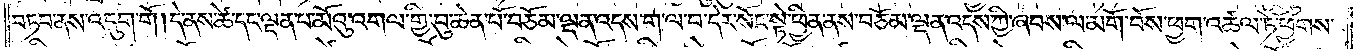བཏབ་ནས་འདུག་གོ །དེ་ནས་ཚེ་དང་ལྡན་པ་མོའུ་འགལ་གྱི་བུ་ཆེན་པོ་བཅོམ་ལྡན་འདས་ག་ལ་བ་དེར་སོང་སྟེ་ཕྱིན་ནས་བཅོམ་ལྡན་འདས་ཀྱི་ཞབས་ལ་མགོ་བོས་ཕྱག་འཚལ་ཏེ་ཕྱོགས་
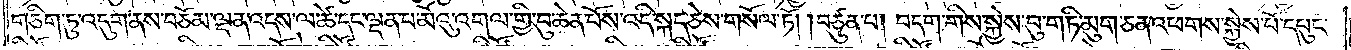གཅིག་ཏུ་འདུག་ནས་བཅོམ་ལྡན་འདས་ལ་ཚེ་དང་ལྡན་པ་མོའུ་འགལ་གྱི་བུ་ཆེན་པོས་འདི་སྐད་ཅེས་གསོལ་ཏོ། །བཙུན་པ། བདག་གིས་སྐྱེས་བུ་གཏི་མུག་ཅན་འཕགས་སྐྱེས་པོ་དཔུང་
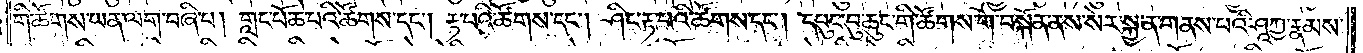གི་ཚོགས་ཡན་ལག་བཞི་པ། གླང་པོ་ཆེ་པའི་ཚོགས་དང༌། རྟ་པའི་ཚོགས་དང༌། ཤིང་རྟ་པའི་ཚོགས་དང༌། དཔུང་བུ་ཆུང་གི་ཚོགས་གོ་བསྐོན་ནས་སེར་སྐྱ་ན་གནས་པའི་ཤཱཀྱ་རྣམས་
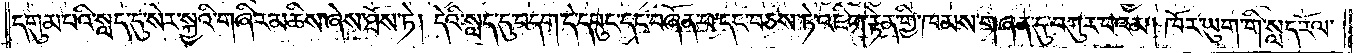དགུམ་པའི་སླད་དུ་སེར་སྐྱའི་གཞིར་མཆིས་ཞེས་ཐོས་ཏེ། དེའི་སླད་དུ་བདག་དེ་དཔུང་དང་བཞོན་པ་དང་བཅས་ཏེ་འཇིག་རྟེན་གྱི་ཁམས་གཞན་དུ་བཀུར་བའམ། ཁོར་ཡུག་གི་སླད་རོལ་
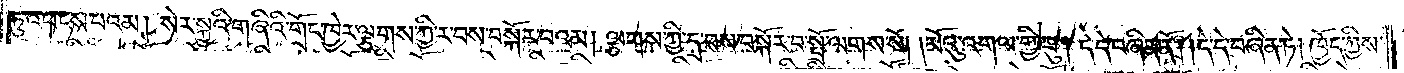ཏུ་འཕངས་པའམ། སེར་སྐྱའི་གཞིའི་གྲོང་ཁྱེར་ལྕགས་ཀྱི་ར་བས་བསྐོར་བའམ། ལྕགས་ཀྱི་དྲ་བས་བསྐོར་བ་སྤྲོ་ལགས་སོ། །མོའུ་འགལ་གྱི་བུ། དེ་དེ་བཞིན་ནོ། །དེ་དེ་བཞིན་ཏེ། ཁྱོད་ཀྱིས་
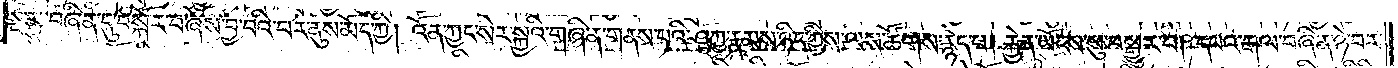སྔ་མ་བཞིན་དུ་བསྐོར་བ་ཞེས་བྱ་བའི་བར་ནུས་མོད་ཀྱི། འོན་ཀྱང་སེར་སྐྱའི་གཞི་ན་གནས་པའི་ཤཱཀྱ་རྣམས་ཉིད་ཀྱིས་ལས་ཚོགས་རྙེད་པ། རྐྱེན་ཡོངས་སུ་བསྒྱུར་བ། དཔའ་རྒལ་བཞིན་ཉེ་བར་
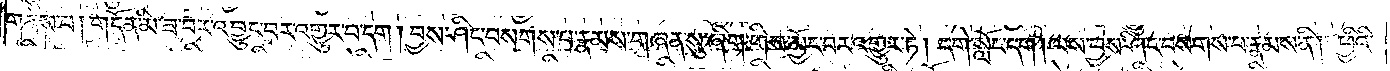གནས་པ། གདོན་མི་ཟ་བར་འབྱུང་བར་འགྱུར་བ་དག །བྱས་ཤིང་བསགས་པ་རྣམས་གཞན་སུ་ཞིག་གིས་མྱོང་བར་འགྱུར་ཏེ། དགེ་སློང་དག །ལས་བྱས་ཤིང་བསགས་པ་རྣམས་ནི། ཕྱིའི་
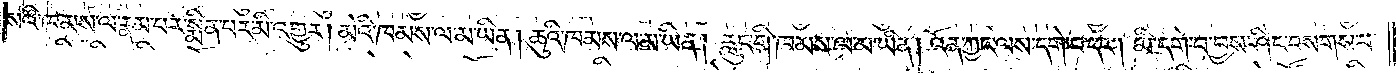སའི་ཁམས་ལ་རྣམ་པར་སྨིན་པར་མི་འགྱུར། མེའི་ཁམས་ལ་མ་ཡིན། ཆུའི་ཁམས་ལ་མ་ཡིན། རླུང་གི་ཁམས་ལ་མ་ཡིན། འོན་ཀྱང་ལས་དགེ་བ་དང༌། མི་དགེ་བ་བྱས་ཤིང་བསགས་པ་
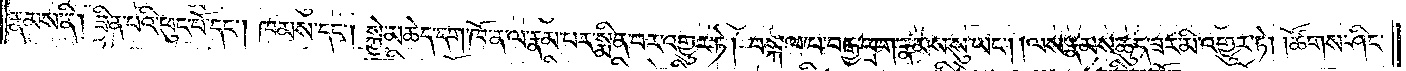རྣམས་ནི། ཟིན་པའི་ཕུང་པོ་དང༌། ཁམས་དང༌། སྐྱེ་མཆེད་དག་ཁོ་ན་ལ་རྣམ་པར་སྨིན་པར་འགྱུར་ཏེ། བསྐལ་པ་བརྒྱ་ཕྲག་རྣམས་སུ་ཡང༌། །ལས་རྣམས་ཆུད་ཟར་མི་འགྱུར་ཏེ། །ཚོགས་ཤིང་
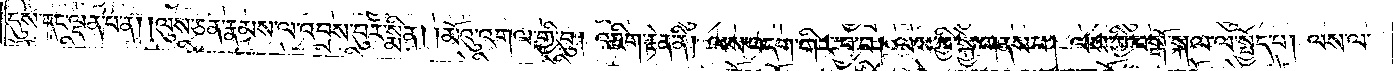དུས་དང་ལྡན་པ་ན། །ལུས་ཅན་རྣམས་ལ་འབྲས་བུར་སྨིན། །མོའུ་འགལ་གྱི་བུ། འཇིག་རྟེན་ནི། ལས་བདག་གིར་བྱ་བ། ལས་ཀྱི་སྐྱེ་གནས་པ། ལས་ཀྱི་བསྒོ་སྐལ་ལ་སྤྱོད་པ། ལས་ལ་
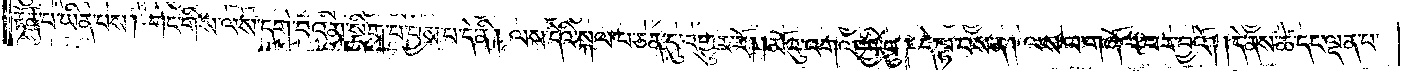རྟོན་པ་ཡིན་པས། གང་གིས་ལས་དགེ་བའམ་སྡིག་པ་བྱས་པ་དེ་ནི། ལས་དེའི་སྐལ་པ་ཅན་དུ་འགྱུར་རོ། །མོའུ་འགལ་གྱི་བུ། དེ་ལྟ་བས་ན། ལས་ལ་གཞོལ་བར་བྱའོ། །དེ་ནས་ཚེ་དང་ལྡན་པ་
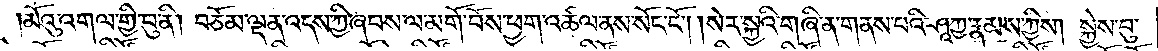མོའུ་འགལ་གྱི་བུ་ནི། བཅོམ་ལྡན་འདས་ཀྱི་ཞབས་ལ་མགོ་བོས་ཕྱག་འཚལ་ནས་སོང་ངོ༌། །སེར་སྐྱའི་གཞི་ན་གནས་པའི་ཤཱཀྱ་རྣམས་ཀྱིས། སྐྱེས་བུ་
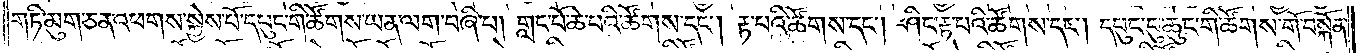གཏི་མུག་ཅན་འཕགས་སྐྱེས་པོ་དཔུང་གི་ཚོགས་ཡན་ལག་བཞི་པ། གླང་པོ་ཆེ་པའི་ཚོགས་དང༌། རྟ་པའི་ཚོགས་དང༌། ཤིང་རྟ་པའི་ཚོགས་དང༌། དཔུང་བུ་ཆུང་གི་ཚོགས་གོ་བསྐོན་
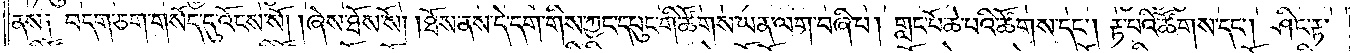ནས། བདག་ཅག་གསོད་དུ་འོངས་སོ། །ཞེས་ཐོས་སོ། །ཐོས་ནས་དེ་དག་གིས་ཀྱང་དཔུང་གི་ཚོགས་ཡན་ལག་བཞི་པ། གླང་པོ་ཆེ་པའི་ཚོགས་དང༌། རྟ་པའི་ཚོགས་དང༌། ཤིང་རྟ་
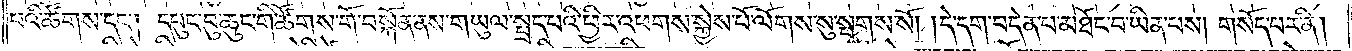བའི་ཚོགས་དང༌། དཔུང་བུ་ཆུང་གི་ཚོགས་གོ་བསྐོན་ནས་གཡུལ་སྤྲད་པའི་ཕྱིར་འཕགས་སྐྱེས་པོ་ལོགས་སུ་སྤགས་སོ། །དེ་དག་བདེན་པ་མཐོང་བ་ཡིན་པས། གསོད་པར་ནི།
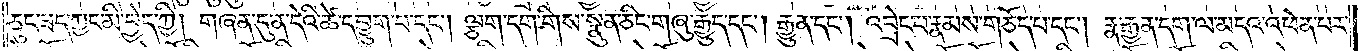ཅུང་ཟད་ཀྱང་མི་བྱེད་ཀྱི། གཞན་དུ་ན་དེའི་ཚེ་དབྱུག་པ་དང༌། ལྕག་དག་གིས་སྣུན་ཅིང་གཞུ་རྒྱུད་དང༌། རྒྱུན་དང༌། འབྲེང་བ་རྣམས་གཅོད་པ་དང༌། རྣ་རྒྱན་དག་ལ་མདའ་འཕེན་པར་
